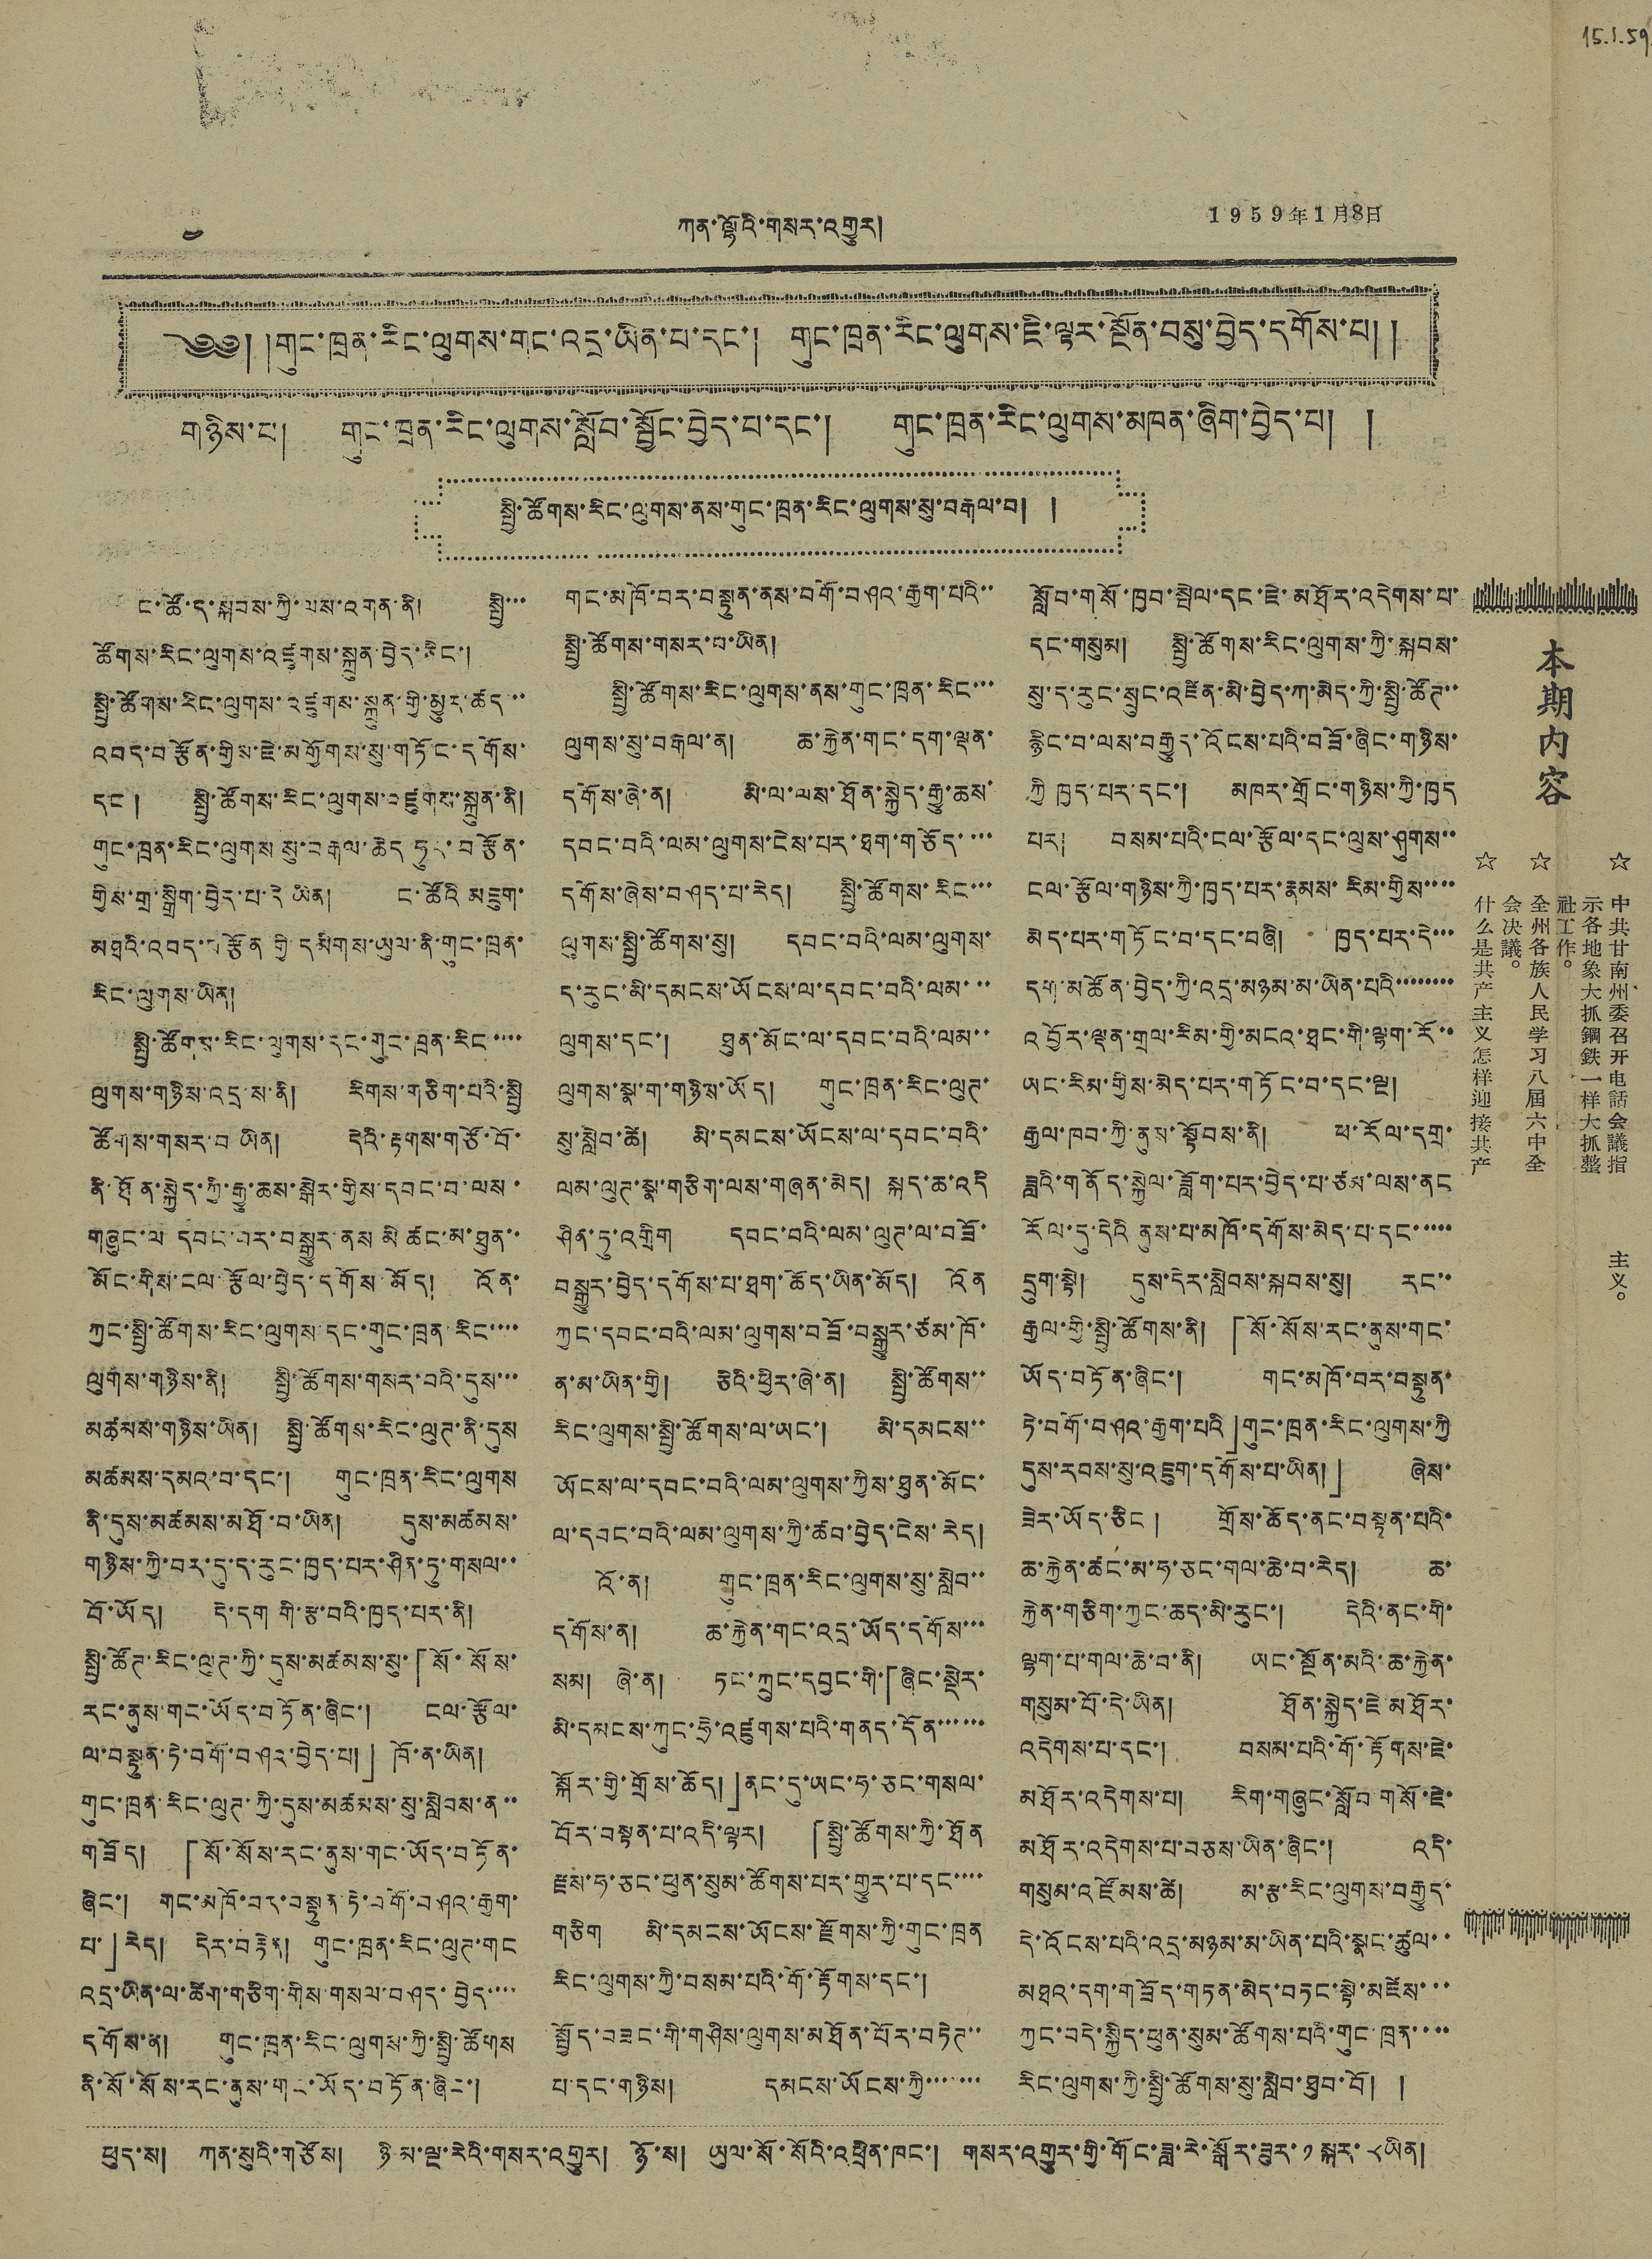༤ ཀན་ལྷོའི་གསར་འགྱུར། 1959年1月8日
༄༅། །གུང་ཁྲན་རིང་ལུགས་གང་འདྲ་ཡིན་པ་དང་། གུང་ཁྲན་རིང་ལུགས་ཇི་ལྟར་སྔོན་བསུ་བྱེད་དགོས་པ། །
གཉིས་པ། གུང་ཁྲན་རིང་ལུགས་སློབ་སྦྱོང་བྱེད་པ་དང་། གུང་ཁྲན་རིང་ལུགས་མཁན་ཞིག་བྱེད་པ། །
སྤྱི་ཚོགས་རིང་ལུགས་ནས་གུང་ཁྲན་རིང་ལུགས་སུ་བརྒལ་བ། །
ང་ཚོ་ད་སྐབས་ཀྱི་ལས་འགན་ནི། སྤྱི་་་
ཚོགས་རིང་ལུགས་འཛུགས་སྐྲུན་བྱེད་ཅིང་།
སྤྱི་ཚོགས་རིང་ལུགས་འཛུགས་སྐྲུན་གྱི་མྱུར་ཚད་་
འབད་བརྩོན་གྱིས་ཇེ་མགྱོགས་སུ་གཏོང་དགོས་
དང་། སྤྱི་ཚོགས་རིང་ལུགས་འཛུགས་སྐྲུན་ནི།
གུང་ཁྲན་རིང་ལུགས སུ་བརྒལ་ཆེད་ཧུར་བརྩོན་
གྱིས་གྲ་སྒྲིག་བྱེད་པ་དེ ཡིན། ང་ཚོའི མཇུག་
མཐའི་འབད་བརྩོན གྱི་དམིགས་ཡུལ་ནི་གུང་ཁྲན་
རིང་ལུགས་ཡིན།
སྤྱི་ཚོགས་རིང་ལུགས་དང་གུང་ཁྲན་རིང་་་་
ལུགས་གཉིས་འདྲ་ས་ནི། རིགས་གཅིག་པའི་སྤྱི
ཚོགས་གསར་བ ཡིན། དེའི་རྟགས་གཙོ་བོ་
ནི་ཐོན་སྐྱེད་ཀྱི་རྒྱུ་ཆས་སྒེར་གྱིས་དབང་བ་ལས་
གཞུང་ལ་དབང་བར་བསྒྱུར་ནས་མི་ཚང་མ་ཐུན་་
མོང་གིས་ངལ་རྩོལ་བྱེད་དགོས་མོད། འོན་
ཀྱང་སྤྱི་ཚོགས་རིང་ལུགས་དང་གུང་ཁྲན་རིང་་་་
ལུགས་གཉིས་ནི། སྤྱི་ཚོགས་གསར་བའི་དུས་་་
མཚམས་གཉིས་ཡིན། སྤྱི་ཚོགས་རིང་ལུཊ་ནི་དུས
མཚམས་དམའ་བ་དང་། གུང་ཁྲན་རིང་ལུགས་
ནི་དུས་མཚམས་མཐོ་བ་ཡིན། དུས་མཚམས་
གཉིས་ཀྱི་བར་དུ་ད་རུང་ཁྱད་པར་ཤིན་ཏུ་གསལ་་
བོ་ཡོད། དེ་དག་གི་རྩ་བའི་ཁྱད་པར་ནི།
སྤྱི་ཚོཊ་རིང་ལུཊ་ཀྱི་དུས་མཚམས་སུ་「སོ་སོས་
རང་ནུས་གང་ཡོད་བཏོན་ཞིང་། ངལ་རྩོལ་
ལ་བསྟུན་ཏེ་བགོ་བཤའ་བྱེད་པ།」 ཁོ་ན་ཡིན།
གུང་ཁྲན་རིང་ལུཊ་ཀྱི་དུས་མཚམས་སུ་སླེབས་ན་་
གཟོད། 「སོ་སོས་རང་ནུས་གང་ཡོད་བཏོན་
ཞིང་། གང་མཁོ་བར་བསྟུན་ཏེ་བགོ་བཤའ་རྒྱག་
པ་」རེད། དེར་བརྟེན། གུང་ཁྲན་རིང་ལུཊ་གང
འདྲ་ཡིན་ལ་ཚིག་གཅིག་གིས་གསལ་བཤད་བྱེད་་་་
དགོས་ན། གུང་ཁྲན་རིང་ལུགས་ཀྱི་སྤྱི་ཚོགས
ནི་སོ་སོས་རང་ནུས་གང་ཡོད་བཏོན་ཞིང་།
གང་མཁོ་བར་བསྟུན་ནས་བགོ་བཤའ་རྒྱག་པའི་་
སྤྱི་ཚོགས་གསར་བ་ཡིན།
སྤྱི་ཚོགས་རིང་ལུགས་ནས་གུང་ཁྲན་རིང་་་
ལུགས་སུ་བརྒལ་ན། ཆ་རྐྱེན་གང་དག་ལྡན་
དགོས་ཞེ་ན། མི་ལ་ལས་ཐོན་སྐྱེད་རྒྱུ་ཆས་
དབང་བའི་ལམ་ལུགས་ངེས་པར་ཐག་གཅོད་་་་
དགོས་ཞེས་བཤད་པ་རེད། སྤྱི་ཚོགས་རིང་་་
ལུགས་སྤྱི་ཚོགས་སུ། དབང་བའི་ལམ་ལུགས་
ད་རུང་མི་དམངས་ཡོངས་ལ་དབང་བའི་ལམ་་་
ལུགས་དང་། ཐུན་མོང་ལ་དབང་བའི་ལམ་་
ལུགས་སྣ་ག་གཉིས་ཡོད། གུང་ཁྲན་རིང་ལུཊ་
སུ་སླེབ་ཚེ། མི་དམངས་ཡོངས་ལ་དབང་བའི་
ལམ་ལུཊ་སྣ་གཅིག་ལས་གཞན་མེད། སྐད་ཆ་འདི་
ཤིན་ཏུ་འགྲིག དབང་བའི་ལམ་ལུཊ་ལ་བཟོ་
བསྒྱུར་བྱེད་དགོས་པ་ཐག་ཆོད་ཡིན་མོད། འོན་
ཀྱང་དབང་བའི་ལམ་ལུགས་བཟོ་བསྒྱུར་ཙམ་ཁོ་
ན་མ་ཡིན་གྱི། ཅིའི་ཕྱིར་ཞེ་ན། སྤྱི་ཚོགས་་
རིང་ལུགས་སྤྱི་ཚོགས་ལ་ཡང་། མི་དམངས་་
ཡོངས་ལ་དབང་བའི་ལམ་ལུགས་ཀྱིས་ཐུན་མོང་
ལ་དབང་བའི་ལམ་ལུགས་ཀྱི་ཚབ་བྱེད་ངེས་རེད།
འོ་ན། གུང་ཁྲན་རིང་ལུགས་སུ་སླེབ་་
དགོས་ན། ཆ་རྐྱེན་གང་འདྲ་ཡོད་དགོས་་་
སམ། ཞེ་ན། ཏང་ཀྲུང་དབྱང་གི་「ཞིང་སྡེར་
མི་དམང་ཀུང་ཧྲེ་འཛུགས་པའི་གནད་དོན་་་་་་
སྐོར་གྱི་གྲོས་ཆོད།」ནང་དུ་ཡང་ཧ་ཅང་གསལ་
བོར་བསྟན་པ་འདི་ལྟར། 「སྤྱི་ཚོགས་ཀྱི་ཐོན
རྫས་ཧ་ཅང་ཕུན་སུམ་ཚོགས་པར་གྱུར་པ་དང་་་་
གཅིག མི་དམངས་ཡོངས་རྫོགས་ཀྱི་གུང་ཁྲན
རིང་ལུགས་ཀྱི་བསམ་པའི་གོ་རྟོགས་དང་།
སྤྱོད་བཟང་གི་གཤིས་ལུགས་མཐོན་པོར་བཏེཌ་་
པ་དང་གཉིས། དམངས་ཡོངས་ཀྱི་་་་་་་
སློབ་གསོ་ཁྱབ་སྤེལ་དང་ཇེ་མཐོར་འདེགས་པ་
དང་གསུམ། སྤྱི་ཚོགས་རིང་ལུགས་ཀྱི་སྐབས་
སུ་ད་རུང་སྲུང་འཛིན་མི་བྱེད་ཀ་མེད་ཀྱི་སྤྱི་ཚོཊ་་
རྙིང་བ་ལས་བརྒྱུད་འོངས་པའི་བཟོ་ཞིང་གཉིས་
ཀྱི་ཁྱད་པར་དང་། མཁར་གྲོང་གཉིས་ཀྱི་ཁྱད
པར། བསམ་པའི་ངལ་རྩོལ་དང་ལུས་ཤུགས་་
ངལ་རྩོལ་གཉིས་ཀྱི་ཁྱད་པར་རྣམས་རིམ་གྱིས་་་་
མེད་པར་གཏོང་བ་དང་བཞི། ཁྱད་པར་དེ་་་
དག་མཚོན་བྱེད་ཀྱི་འདྲ་མཉམ་མ་ཡིན་པའི་་་་་་་་
འབྱོར་ལྡན་གྲལ་རིམ་གྱི་མངའ་ཐང་གི་ལྷག་རོ་་
ཡང་རིམ་གྱིས་མེད་པར་གཏོང་བ་དང་ལྔ།
རྒྱལ་ཁབ་ཀྱི་ནུས་སྟོབས་ནི། ཕ་རོལ་དགྲ་
ཟླའི་གནོད་སྐྱེལ་ཟློག་པར་བྱེད་པ་ཙམ་ལས་ནང
རོལ་དུ་དེའི་ནུས་པ་མཁོ་དགོས་མེད་པ་དང་་་་་
དྲུག་སྟེ། དུས་དེར་སླེབས་སྐབས་སུ། རང་་
རྒྱལ་གྱི་སྤྱི་ཚོགས་ནི།「སོ་སོས་རང་ནུས་གང་
ཡོད་བཏོན་ཞིང་། གང་མཁོ་བར་བསྟུན་
ཏེ་བགོ་བཤའ་རྒྱག་པའི་」གུང་ཁྲན་རིང་ལུགས་ཀྱི
དུས་རབས་སུ་འཇུག་དགོས་པཡིན།」 ཞེས་
ཟེར་ཡོད་ཅིང་། གྲོས་ཆོད་ནང་བསྟན་པའི་
ཆ་རྐྱེན་ཚང་མ་ཧ་ཅང་གལ་ཆེ་བ་རེད། ཆ་
རྐྱེན་གཅིག་ཀྱང་ཆད་མི་རུང་། དེའི་ནང་གི་
ལྷག་པ་གལ་ཆེ་བ་ནི། ཡང་སྔོན་མའི་ཆ་རྐྱེན་
གསུམ་པོ་དེ་ཡིན། ཐོན་སྐྱེད་ཇེ་མཐོར་
འདེགས་པ་དང་། བསམ་པའི་གོ་རྟོགས་ཇེ་
མཐོར་འདེགས་པ། རིག་གཞུང་སློབ་གསོ་ཇེ་
མཐོར་འདེགས་པ་བཅས་ཡིན་ཞིང་། འདི་
གསུམ་འཛོམས་ཚེ། མ་རྩ་རིང་ལུགས་བརྒྱུད་
དེ་འོངས་པའི་འདྲ་མཉམ་མ་ཡིན་པའི་སྣང་ཚུལ་་
མཐའ་དག་གཟོད་གཏན་མེད་བཏང་སྟེ་མཛེས་་་
ཀྱང་བདེ་སྐྱིད་ཕུན་སུམ་ཚོགས་པའི་གུང་ཁྲན་་་་
རིང་ལུགས་ཀྱི་སྤྱི་ཚོགས་སུ་སླེབ་ཐུབ་བོ། །
པུད་ས། ཀན་སུའི་གཙོས། ཉི་མ་ལྔ་རེའི་གསར་འགྱུར། ཉོ་ས། ཡུལ་སོ་སོའི་འཕྲིན་ཁང་། གསར་འགྱུར་གྱི་གོང་ཟླ་རེ་སྒོར་ཟུར་ ༡ སྐར་ ༨ ཡིན།
本期內容
☆ 中共甘南州委召开电話会議指
示各地象大抓鋼鉄一样大抓整
社工作。
☆ 全州各族人民学习八屆六中全
会决議。
☆ 什么是共产主义怎样迎接共产
主义。
